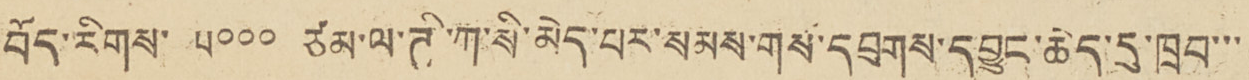བོད་རིགས་ ༥༠༠༠ ཙམ་ལ་ཊི་ཀ་སི་མེད་པར་སམས་གསོ་དབུགས་དབྱུང་ཆེད་དུ་ཁྲབ་་་
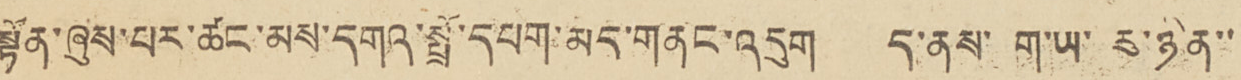སྟོན་ཞུས་པར་ཚང་མས་དགའ་སྤྲོ་དཔག་མད་གནང་འདུག ད་ནས་ ག་ཡ་ རུ་ཉིན་་
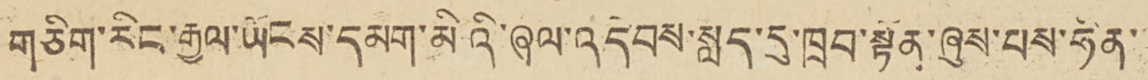གཅིག་རིང་རྒྱལ་ཡོངས་དམག་མིའི་ཞལ་འདེབས་སླད་དུ་ཁྲབ་སྟོན་ཞུས་པས་ཧིན་
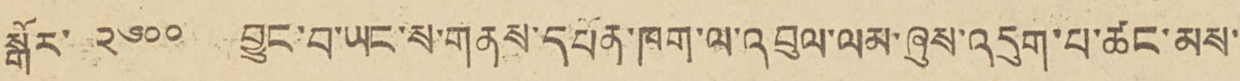སྒོར་ ༢༦༠༠ བྱུང་བ་ཡང་ས་གནས་དཔོན་ཁག་ལ་འབུལ་ལམ་ཞུས་འདུག་པ་ཚང་མས་
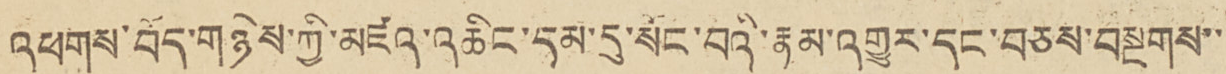འཕགས་བོད་གཉིས་ཀྱི་མཛའ་འཆིང་དམ་དུ་སོང་བའི་རྣམ་འགྱུར་དང་བཅས་བསྔགས་་
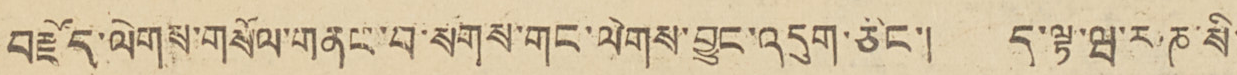བརྗོད་ལེགས་གསོལ་གནང་བ་སོགས་གང་ལེགས་བྱུང་འདུག་ཅིང་། ད་ལྟ་ཝ་ར་ཎ་སི་
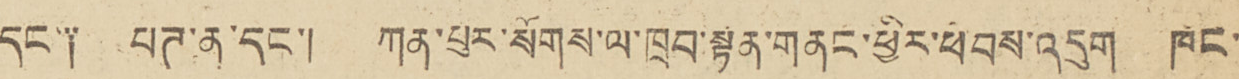དང༑ པཊ་ན་དང་། ཀན་པུར་སོགས་ལ་ཁྲབ་སྟན་གནང་ཕྱིར་ཕེབས་འདུག ཁོང་
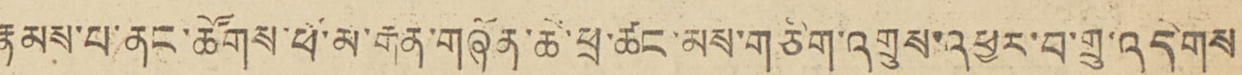རྣམས་པ་ནང་ཚོགས་ཕོ་མ་རྒན་གཞོན་ཆེ་ཕྲ་ཚང་མས་གཅིག་འགྲུས་འཕྱར་བ་གྲུ་འདེགས་
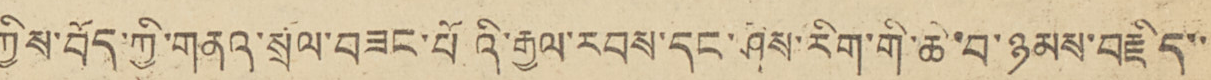གྱིས་བོད་ཀྱི་གནའ་སྲོལ་བཟང་པོའི་རྒྱལ་རབས་དང་ཤེས་རིག་གི་ཆེ་བ་ཉམས་བརྗིད་་
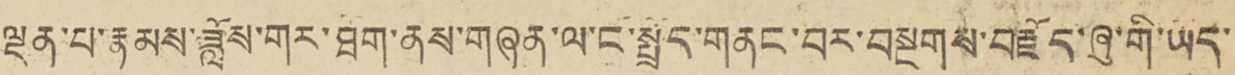ལྡན་པ་རྣམས་ཟློས་གར་ཐོག་ནས་གཞན་ལ་ང་སྤྲོད་གནང་བར་བསྔགས་བརྗོད་ཞུ་གི་ཡོད་
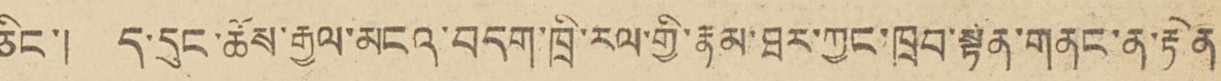ཅིང་། ད་དུང་ཆོས་རྒྱའ་མངའ་བདག་ཁྲི་རལ་གྱི་རྣམ་ཐར་ཀྱང་ཁྲབ་སྟོན་གནང་ན་རྟེན་
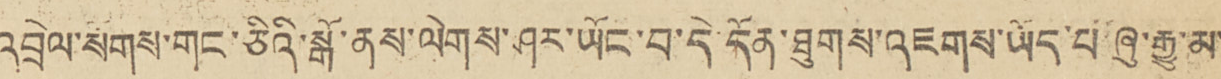འབྲེལ་སོགས་གང་ཅིའི་སྒོ་ནས་ལེགས་ཤར་ཡོང་བ་དེ་དོན་ཐུགས་འཇགས་ཡོད་བ་ཞུ་རྒྱུ་མ་
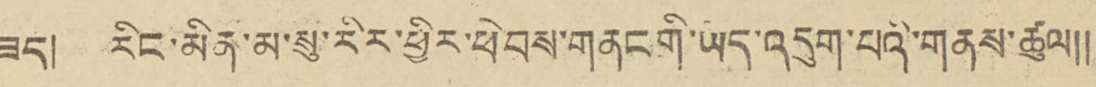ཟད། རིང་མིན་མ་སུ་རིར་ཕྱིར་ཕེབས་གནང་གི་ཡོད་འདུག་པའི་གནས་ཚུལ།།
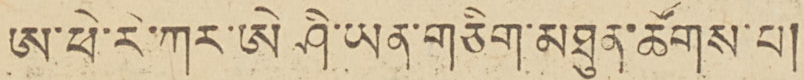ཨ་ཕེ་རི་ཀར་ཨེ་ཤེ་ཡན་གཅིག་མཐུན་ཚོགས་པ།
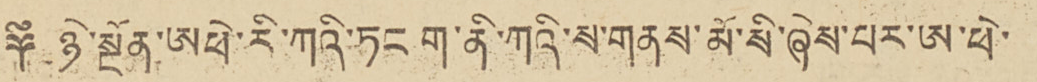༈ ཉེ་སྔོན་ཨཕེ་རི་ཀའི་ཏང ག་ནི་ཀའི་ས་གནས་མོ་སི་ཞེས་པར་ཨ་ཕེ་
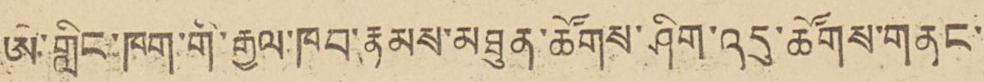ཨེ་གླིང་ཁག་གི་རྒྱལ་ཁབ་རྣམས་མཐུན་ཚོགས་ཤིག་འདུ་ཚོགས་གནང་
